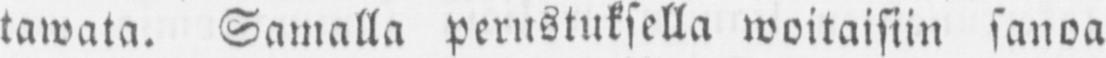täwätä. Samalla perustuksella woitaisiin sanoa
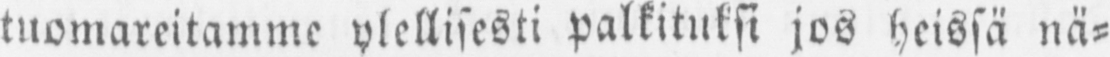tuomareitamme ylellisesti palkituksi jos heissä nä-
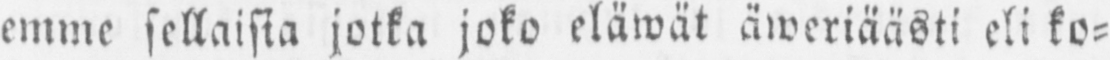emme sellaisia jotka joko eläwät äweriäästi eli ko-
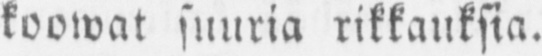koowat suuria rikkauksia.
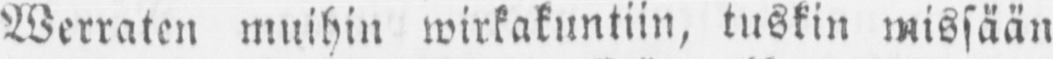Werraten muihin wirkakuntiin, tuskin missään
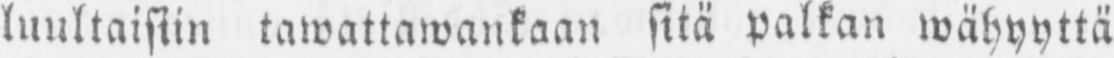luultaisiin tawattawankaan sitä palkan wähyyttä
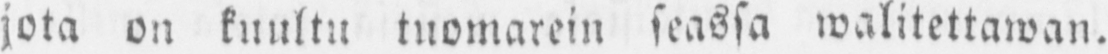jota on kuultu tuomarein seassa walitettawan.
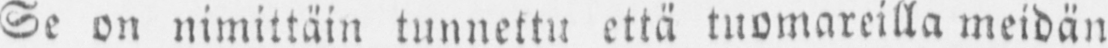Se on nimittäin tunnettu että tuomareilla meidän
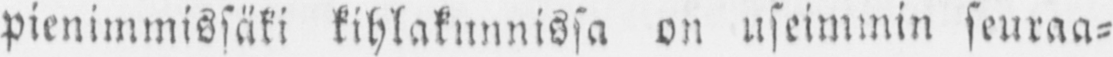pienimmissäki kihlakunnissa on useimmin seuraa-
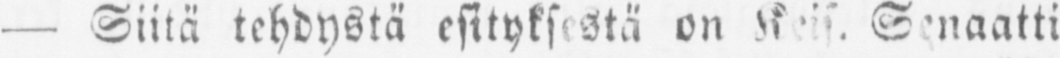— Siitä tehdystä esityksestä on Keis. Senaatti
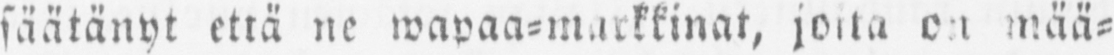säätänyt että ne wapaa-markkinat, joita on mää-
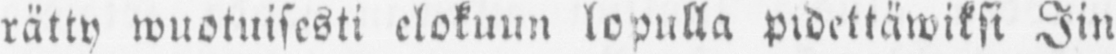rätty wuotuisesti elokuun lopulla pidettäwiksi Iin
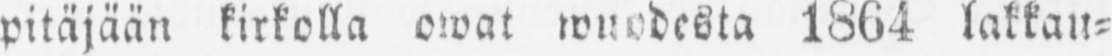pitäjään kirkolla owat wuodesta 1864 lakkau-
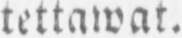tettawat.
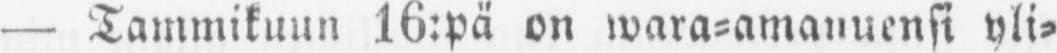— Tammikuun 16:pä on wara-amanuensi yli-
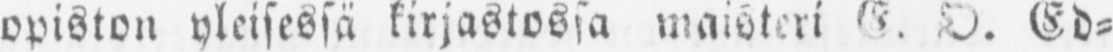opiston yleisessä kirjastossa maisteri E.O. Ed-
